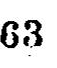63
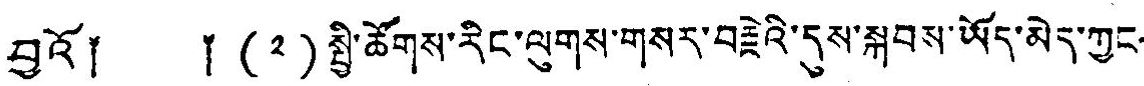བྱའོ༐ ༐ (༢)སྤྱི་ཚོགས་རིང་ལུགས་གསར་བརྗེའི་དུས་སྐབས་ཡོད་མེད་ཀྱང་
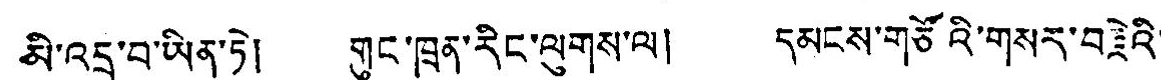མི་འདྲ་བ་ཡིན་ཏེ། གུང་ཁྲན་རིང་ལུགས་ལ། དམངས་གཙོའི་གསར་བརྗེའི་
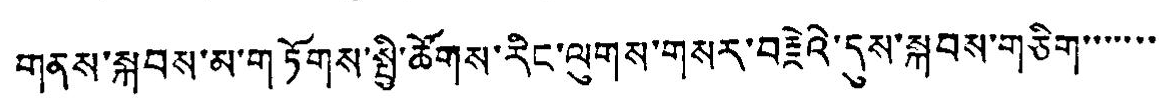གནས་སྐབས་མ་གཏོགས་སྤྱི་ཚོགས་རིང་ལུགས་གསར་བརྗེའི་དུས་སྐབས་གཅིག་་་་་་་
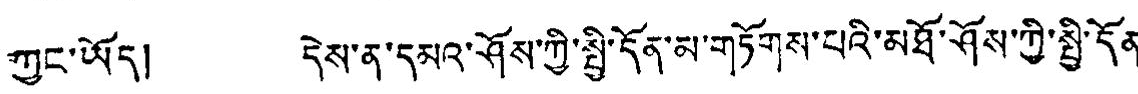ཀྱང་ཡོད། དེས་ན་དམའ་ཤོས་ཀྱི་སྤྱི་དོན་མ་གཏོགས་པའི་མཐོ་ཤོས་ཀྱི་སྤྱི་དོན་
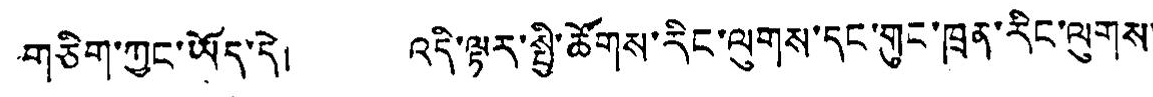གཅིག་ཀྱང་ཡོད་དེ། འདི་ལྟར་སྤྱི་ཚོགས་རིང་ལུགས་དང་གུང་ཁྲན་རིང་ལུགས་
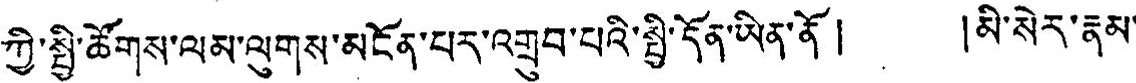ཀྱི་སྤྱི་ཚོགས་ལམ་ལུགས་མངོན་པར་འགྲུབ་པའི་སྤྱི་དོན་ཡིན་ནོ ། །མི་སེར་རྣམ་
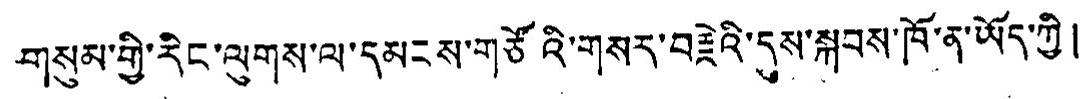གསུམ་གྱི་རིང་ལུགས་ལ་དམངས་གཙོའི་གསར་བརྗེའི་དུས་སྐབས་ཁོ་ན་ཡོད་ཀྱི།
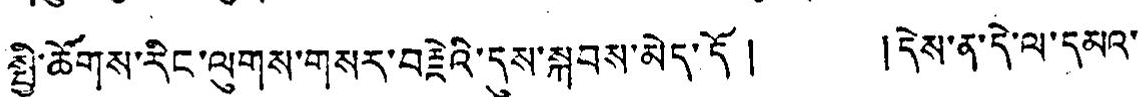སྤྱི་ཚོགས་རིང་ལུགས་གསར་བརྗེའི་དུས་སྐབས་མེད་དོ། །དེས་ན་དེ་ལ་དམའ་
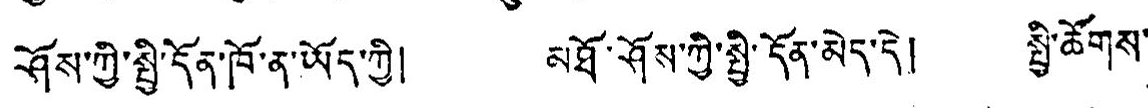ཤོས་ཀྱི་སྤྱི་དོན་ཁོ་ན་ཡོད་ཀྱི། མཐོ་ཤོས་ཀྱི་སྤྱེ་དོན་མེད་དེ། སྤྱི་ཚོགས་
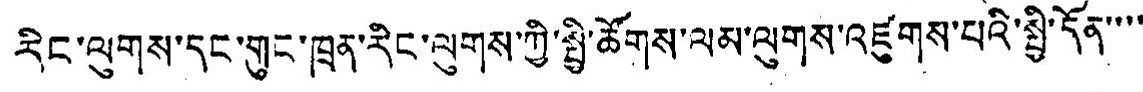རིང་ལུགས་དང་གུང་ཁྲན་རིང་ལུགས་ཀྱི་སྤྱི་ཚོགས་ལམ་ལུགས་འཛུགས་པའི་སྤྱི་དོན་་་་
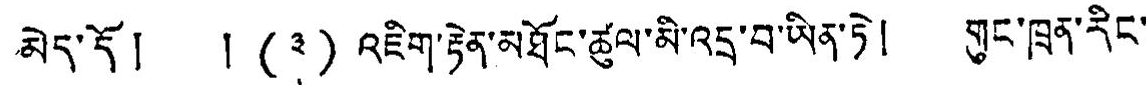མེད་དོ ། ། (༣) འཇིག་རྟེན་མཐོང་ཚུལ་མི་འདྲ་བ་ཡིན་ཏེ། གུང་ཁྲན་རིང་
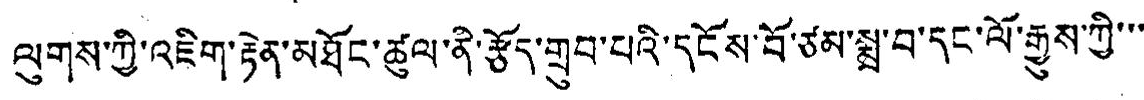ལུགས་ཀྱི་འཇིག་རྟེན་མཐོང་ཚུལ་ནི་རྩོད་གྲུབ་པའི་དངོས་བོ་ཙམ་སྨྲ་བ་དང་ལོ་རྒྱུས་ཀྱི་་་
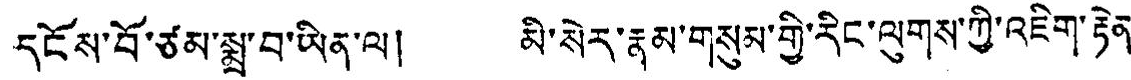དངོས་བོ་ཙམ་སྨྲ་བ་ཡིན་ལ། མི་སེར་རྣམ་གསུལ་གྱི་རིང་ལུགས་ཀྱི་འཇིག་རྟེན་
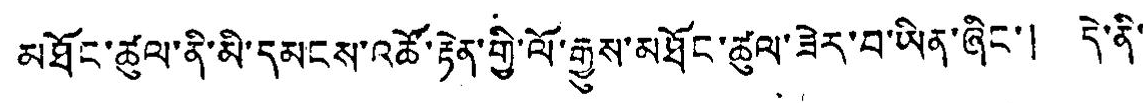མཐོང་ཚུལ་ནི་མི་དམངས་འཚོ་རྟེན་གྱི་ལོ་རྒྱུས་མཐོང་ཚུལ་ཟེར་བ་ཡིན་ཞིང་། དེ་ནི་
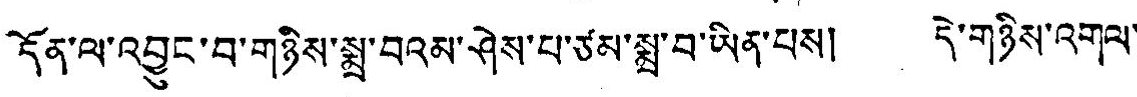དོན་ལ་འབྱུང་བ་གཉིས་སྨྲ་བའམ་ཤེས་པ་ཙམ་སྨྲ་བ་ཡིན་པས། དེ་གཉིས་འགལ་
